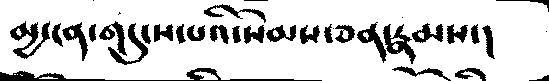མྱ་ངན་གདུངས་པའི་སེམས་ཅན་རྣམས་།
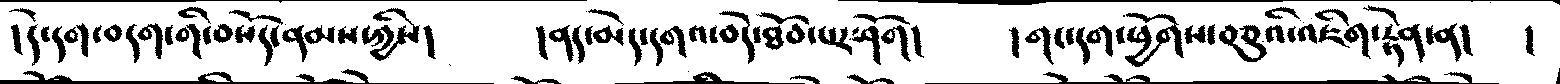།དེ་དག་བདག་གི་བསོད་ནམས་ཀྱིས།   །ནད་མེད་དགའ་བདེ་ཐོབ་པར་ཤོག།   །གང་དག་ཕྱོགས་བཅུའི་འཇིག་རྟེན་ན།   །
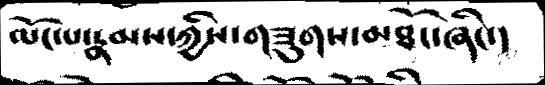ལོང་པ་རྣམས་ཀྱིས་གཟུགས་མཐོང་ཞིང་།
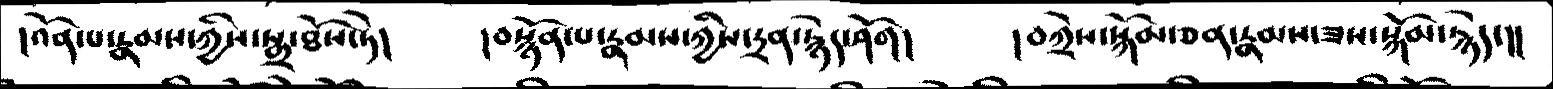།འོན་པ་རྣམས་ཀྱིས་སྒྲ་ཐོས་ཏེ།   །བསྙོན་པ་རྣམས་ཀྱིས་དྲན་རྙེད་ཤོག།   །བཀྲེས་སྐོམ་ཅན་རྣམས་ཟས་སྐོམ་རྙེད་།།
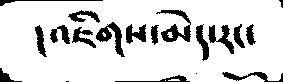།འཇིགས་མེད་རང་
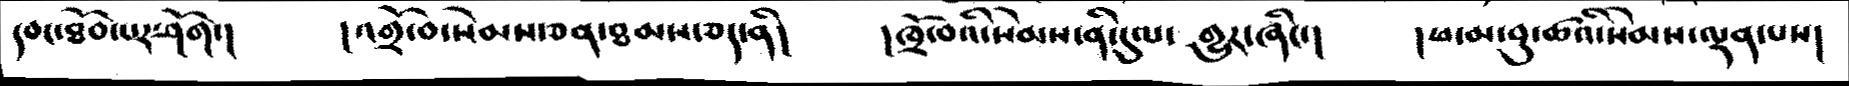དབང་ཐོབ་པར་ཤོག་།    །འགྲོ་བ་སེམས་ཅན་ཐམས་ཅད་ནི།      །ཁྲོ་བའི་སེམས་ནི་དུལ་  གྱུར་ཞིང་།     །ཕ་མ་བུ་ཚའི་སེམས་ལྡན་པས།
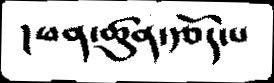།ཕན་ཚུན་རྩོད་པ
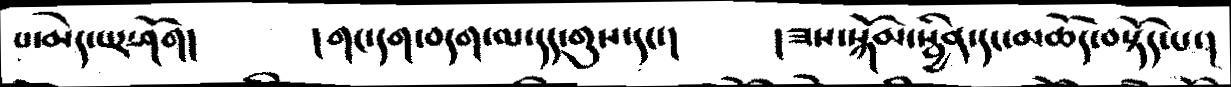པ་མེད་པར་ཤོག།   །གང་དག་བདག་ལ་དད་གུས་དང་།   །ཟས་སྐོམ་སྦྱིན་དང་མཆོད་བསྟོད་པ་།
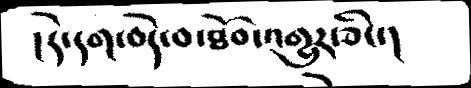།དེ་དག་བདེ་བ་ཐོབ་འགྱུར་ཅིང་།
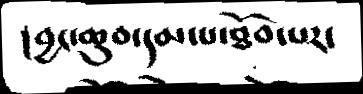།བྱང་ཆུབ་དམ་པ་ཐོབ་པར་
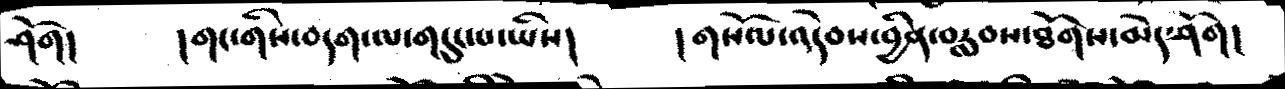ཤོག།    །གང་གིས་བདག་ལ་གདུང་པ་ཡིས།      །གསོལ་འདེབས་བྱིན་བརླབས་ཐོགས་མེད་ཤོག།
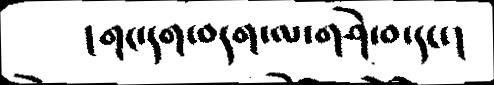།གང་དག་བདག་ལ་གཤེ་བ་དང་།
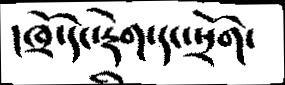།ཁྲོ་དང་རྡེག་དང་སྲོག་
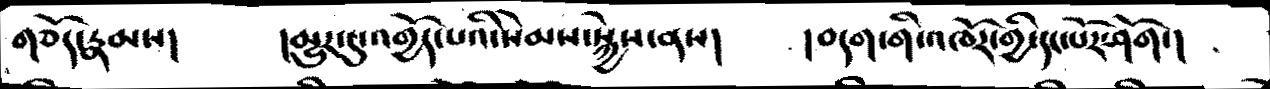གཅོད་རྣམས།       །མྱུར་དུ་འགྱོད་པའི་སེམས་སྐྱེས་ནས།      །བདག་གི་འཁོར་གྱི་དང་པོར་ཤོག་།
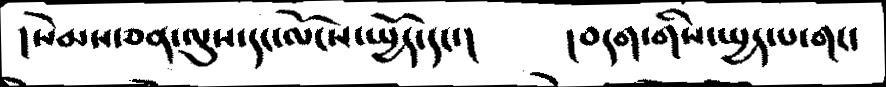།སེམས་ཅན་ལུས་དང་ལོངས་སྤྱོད་དང་།       །བདག་གིས་ཡྱད་པ་གང་
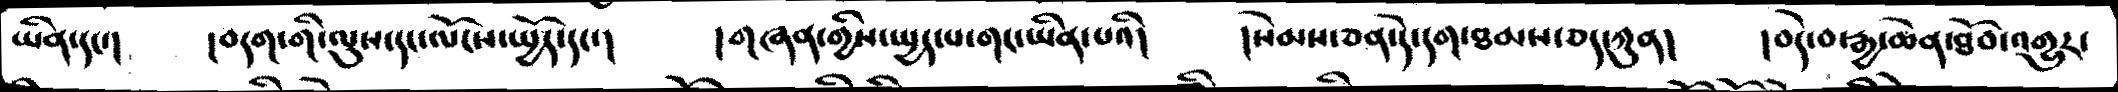ཡིན་དང་།    །བདག་གི་ལུས་དང་ལོངས་སྤྱོད་དང་།      །གཞན་གྱིས་སྤྱད་པ་གང་ཡིན་པའི།      །སེམས་ཅན་དེ་དག་ཐམས་ཅད་ཀུན།    །བདེ་བ་རྒྱ་ཆེན་ཐོབ་འགྱུར་
